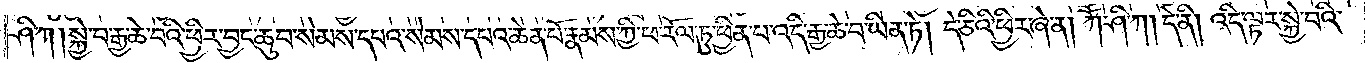ཤི་ཀ །སྐྱེ་བ་རྒྱ་ཆེ་བའི་ཕྱིར་བྱང་ཆུབ་སེམས་དཔའ་སེམས་དཔའ་ཆེན་པོ་རྣམས་ཀྱི་ཕ་རོལ་ཏུ་ཕྱིན་པ་འདི་རྒྱ་ཆེ་བ་ཡིན་ཏེ། དེ་ཅིའི་ཕྱིར་ཞེ་ན། ཀཽ་ཤི་ཀ། དེ་ནི། འདི་ལྟར་སྐྱེ་བའི་
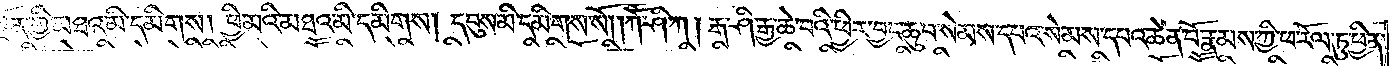སྔོན་གྱི་མཐའ་མི་དམིགས། ཕྱི་མའི་མཐའ་མི་དམིགས། དབུས་མི་དམིགས་སོ། །ཀཽ་ཤི་ཀ །རྒ་ཤི་རྒྱ་ཆ་བའི་ཕྱིར་བྱང་ཆུབ་སེམས་དཔའ་སེམས་དཔའ་ཆེན་པོ་རྣམས་ཀྱི་ཕ་རོལ་ཏུ་ཕྱིན་
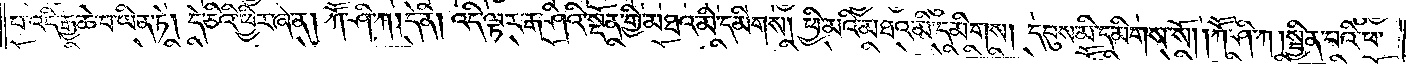པ་འདི་རྒྱ་ཆེ་བ་ཡིན་ཏེ། དེ་ཅིའི་ཕྱིར་ཞེ་ན། ཀཽ་ཤི་ཀ །དེ་ནི། འདི་ལྟར་རྒ་ཤིའི་སྔོན་གྱི་མཐའ་མི་དམིགས། ཕྱི་མའི་མཐའ་མི་དམིགས། དབུས་མི་དམིགས་སོ། །ཀཽ་ཤི་ཀ །སྦྱིན་པའི་ཕ་
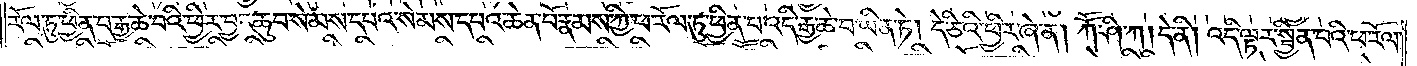རོལ་ཏུ་ཕྱིན་པ་རྒྱ་ཆེ་བའི་ཕྱིར་བྱང་ཆུབ་སེམས་དཔའ་སེམས་དཔའ་ཆེན་པོ་རྣམས་ཀྱི་ཕ་རོལ་ཏུ་ཕྱིན་པ་འདི་རྒྱ་ཆེ་བ་ཡིན་ཏེ། དེ་ཅིའི་ཕྱིར་ཞེ་ན། ཀཽ་ཤི་ཀ །དེ་ནི། འདི་ལྟར་སྦྱིན་པའི་ཕ་རོལ་
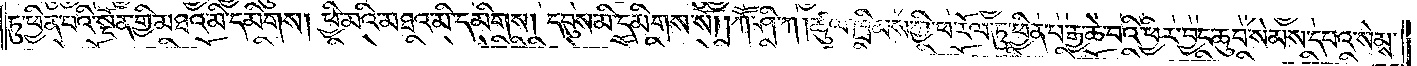ཏུ་ཕྱིན་པའི་སྔོན་གྱི་མཐའ་མི་དམིགས། ཕྱི་མའི་མཐའ་མི་དམིགས། དབུས་མི་དམིགས་སོ། །ཀཽ་ཤི་ཀ །ཚུལ་ཁྲིམས་ཀྱི་ཕ་རོལ་ཏུ་ཕྱིན་པ་རྒྱ་ཆེ་བའི་ཕྱིར་བྱང་ཆུབ་སེམས་དཔའ་སེམས་
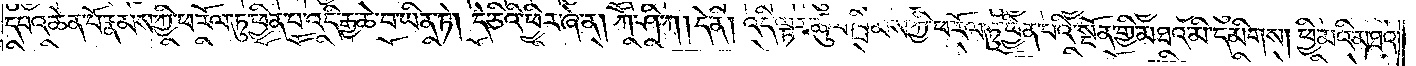དཔའ་ཆེན་པོ་རྣམས་ཀྱི་ཕ་རོལ་ཏུ་ཕྱིན་པ་འདི་རྒྱ་ཆེ་བ་ཡིན་ཏེ། དེ་ཅིའི་ཕྱིར་ཞེ་ན། ཀཽ་ཤི་ཀ །དེ་ནི། འདི་ལྟར་ཚུལ་ཁྲིམས་ཀྱི་ཕ་རོལ་ཏུ་ཕྱིན་པའི་སྔོན་གྱི་མཐའ་མི་དམིགས། ཕྱི་མའི་མཐའ་
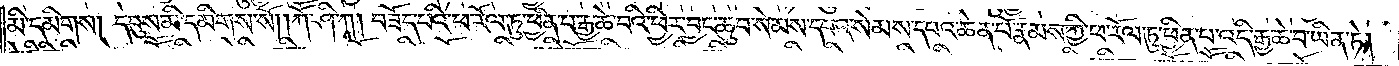མི་དམིགས། དབུས་མི་དམིགས་སོ། །ཀཽ་ཤི་ཀ། བཟོད་པའི་ཕ་རོལ་ཏུ་ཕྱིན་པ་རྒྱ་ཆེ་བའི་ཕྱིར་བྱང་ཆུབ་སེམས་དཔའ་སེམས་དཔའ་ཆེན་པོ་རྣམས་ཀྱི་ཕ་རོལ་ཏུ་ཕྱིན་པ་འདི་རྒྱ་ཆེ་བ་ཡིན་ཏེ།
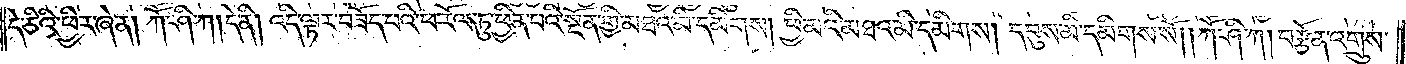དེ་ཅིའི་ཕྱིར་ཞེ་ན། ཀཽ་ཤི་ཀ། དེ་ནི། འདི་ལྟར་བཟོད་པའི་ཕ་རོལ་ཏུ་ཕྱིན་པའི་སྔོན་གྱི་མཐའ་མི་དམིགས། ཕྱི་མའི་མཐའ་མི་དམིགས། དབུས་མི་དམིགས་སོ། །ཀཽ་ཤི་ཀ། བརྩོན་འགྲུས་
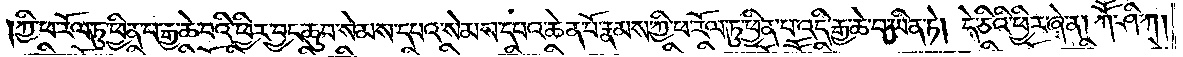ཀྱི་ཕ་རོལ་ཏུ་ཕྱིན་པ་རྒྱ་ཆེ་བའི་ཕྱིར་བྱང་ཆུབ་སེམས་དཔའ་སེམས་དཔའ་ཆེན་པོ་རྣམས་ཀྱི་ཕ་རོལ་ཏུ་ཕྱིན་པ་འདི་རྒྱ་ཆེ་བ་ཡིན་ཏེ། དེ་ཅིའི་ཕྱིར་ཞེ་ན། ཀཽ་ཤི་ཀ།
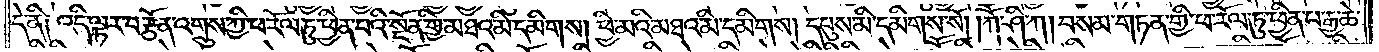དེ་ནི། འདི་ལྟར་བརྩོན་འགྲུས་ཀྱི་ཕ་རོལ་ཏུ་ཕྱིན་པའི་སྔོན་གྱི་མཐའ་མི་དམིགས། ཕྱི་མའི་མཐའ་མི་དམིགས། དབུས་མི་དམིགས་སོ། །ཀཽ་ཤི་ཀ། བསམ་གཏན་གྱི་ཕ་རོལ་ཏུ་ཕྱིན་པ་རྒྱ་ཆེ་
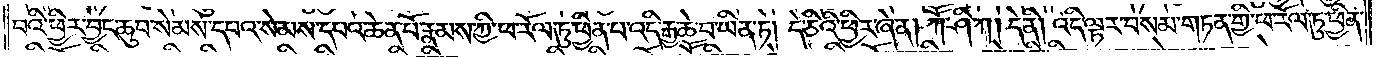བའི་ཕྱིར་བྱང་ཆུབ་སེམས་དཔའ་སེམས་དཔའ་ཆེན་པོ་རྣམས་ཀྱི་ཕ་རོལ་ཏུ་ཕྱིན་པ་འདི་རྒྱ་ཆེ་བ་ཡིན་ཏེ། དེ་ཅིའི་ཕྱིར་ཞེ་ན། ཀཽ་ཤི་ཀ། དེ་ནི། འདི་ལྟར་བསམ་གཏན་གྱི་ཕ་རོལ་ཏུ་ཕྱིན་
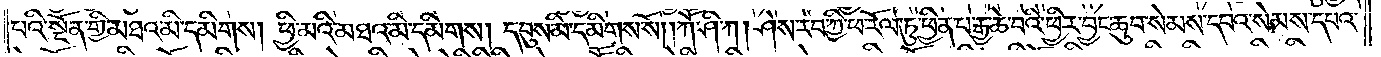པའི་སྔོན་གྱི་མཐའ་མི་དམིགས། ཕྱི་མའི་མཐའ་མི་དམིགས། དབུས་མི་དམིགས་སོ། །ཀཽ་ཤི་ཀ། ཤེས་རབ་ཀྱི་ཕ་རོལ་ཏུ་ཕྱིན་པ་རྒྱ་ཆེ་བའི་ཕྱིར་བྱང་ཆུབ་སེམས་དཔའ་སེམས་དཔའ་
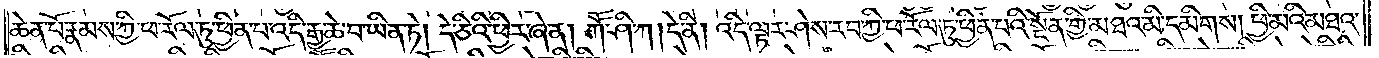ཆེན་པོ་རྣམས་ཀྱི་ཕ་རོལ་ཏུ་ཕྱིན་པ་འདི་རྒྱ་ཆེ་བ་ཡིན་ཏེ། དེ་ཅིའི་ཕྱིར་ཞེ་ན། ཀཽ་ཤི་ཀ། དེ་ནི། འདི་ལྟར་ཤེས་རབ་ཀྱི་ཕ་རོལ་ཏུ་ཕྱིན་པའི་སྔོན་གྱི་མཐའ་མི་དམིགས། ཕྱི་མའི་མཐའ་
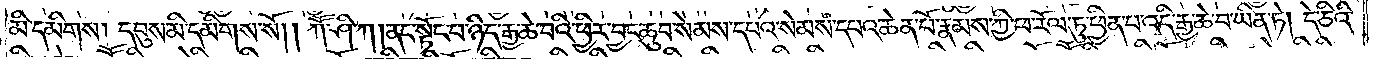མི་དམིགས། དབུས་མི་དམིགས་སོ། །ཀཽ་ཤི་ཀ། ནང་སྟོང་པ་ཉིད་རྒྱ་ཆེ་བའི་ཕྱིར་བྱང་ཆུབ་སེམས་དཔའ་སེམས་དཔའ་ཆེན་པོ་རྣམས་ཀྱི་ཕ་རོལ་ཏུ་ཕྱིན་པ་འདི་རྒྱ་ཆེ་བ་ཡིན་ཏེ། དེ་ཅིའི་
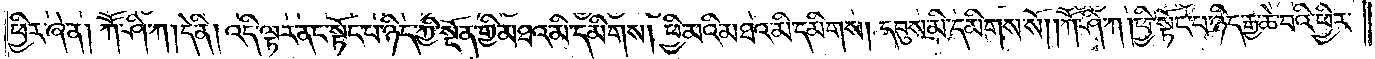ཕྱིར་ཞེ་ན། ཀཽ་ཤི་ཀ། དེ་ནི། འདི་ལྟར་ནང་སྟོང་པ་ཉིད་ཀྱི་སྔོན་གྱི་མཐའ་མི་དམིགས། ཕྱི་མའི་མཐའ་མི་དམིགས། དབུས་མི་དམིགས་སོ། །ཀཽ་ཤི་ཀ །ཕྱི་སྟོང་པ་ཉིད་རྒྱ་ཆེ་བའི་ཕྱིར་
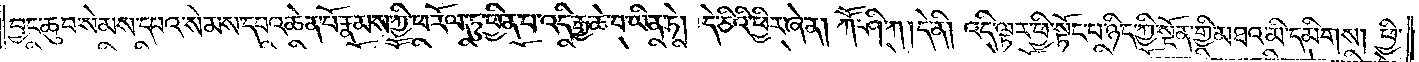བྱང་ཆུབ་སེམས་དཔའ་སེམས་དཔའ་ཆེན་པོ་རྣམས་ཀྱི་ཕ་རོལ་ཏུ་ཕྱིན་པ་འདི་རྒྱ་ཆེ་བ་ཡིན་ཏེ། དེ་ཅིའི་ཕྱིར་ཞེ་ན། ཀཽ་ཤི་ཀ །དེ་ནི། འདི་ལྟར་ཕྱི་སྟོང་པ་ཉིད་ཀྱི་སྔོན་གྱི་མཐའ་མི་དམིགས། ཕྱི་
